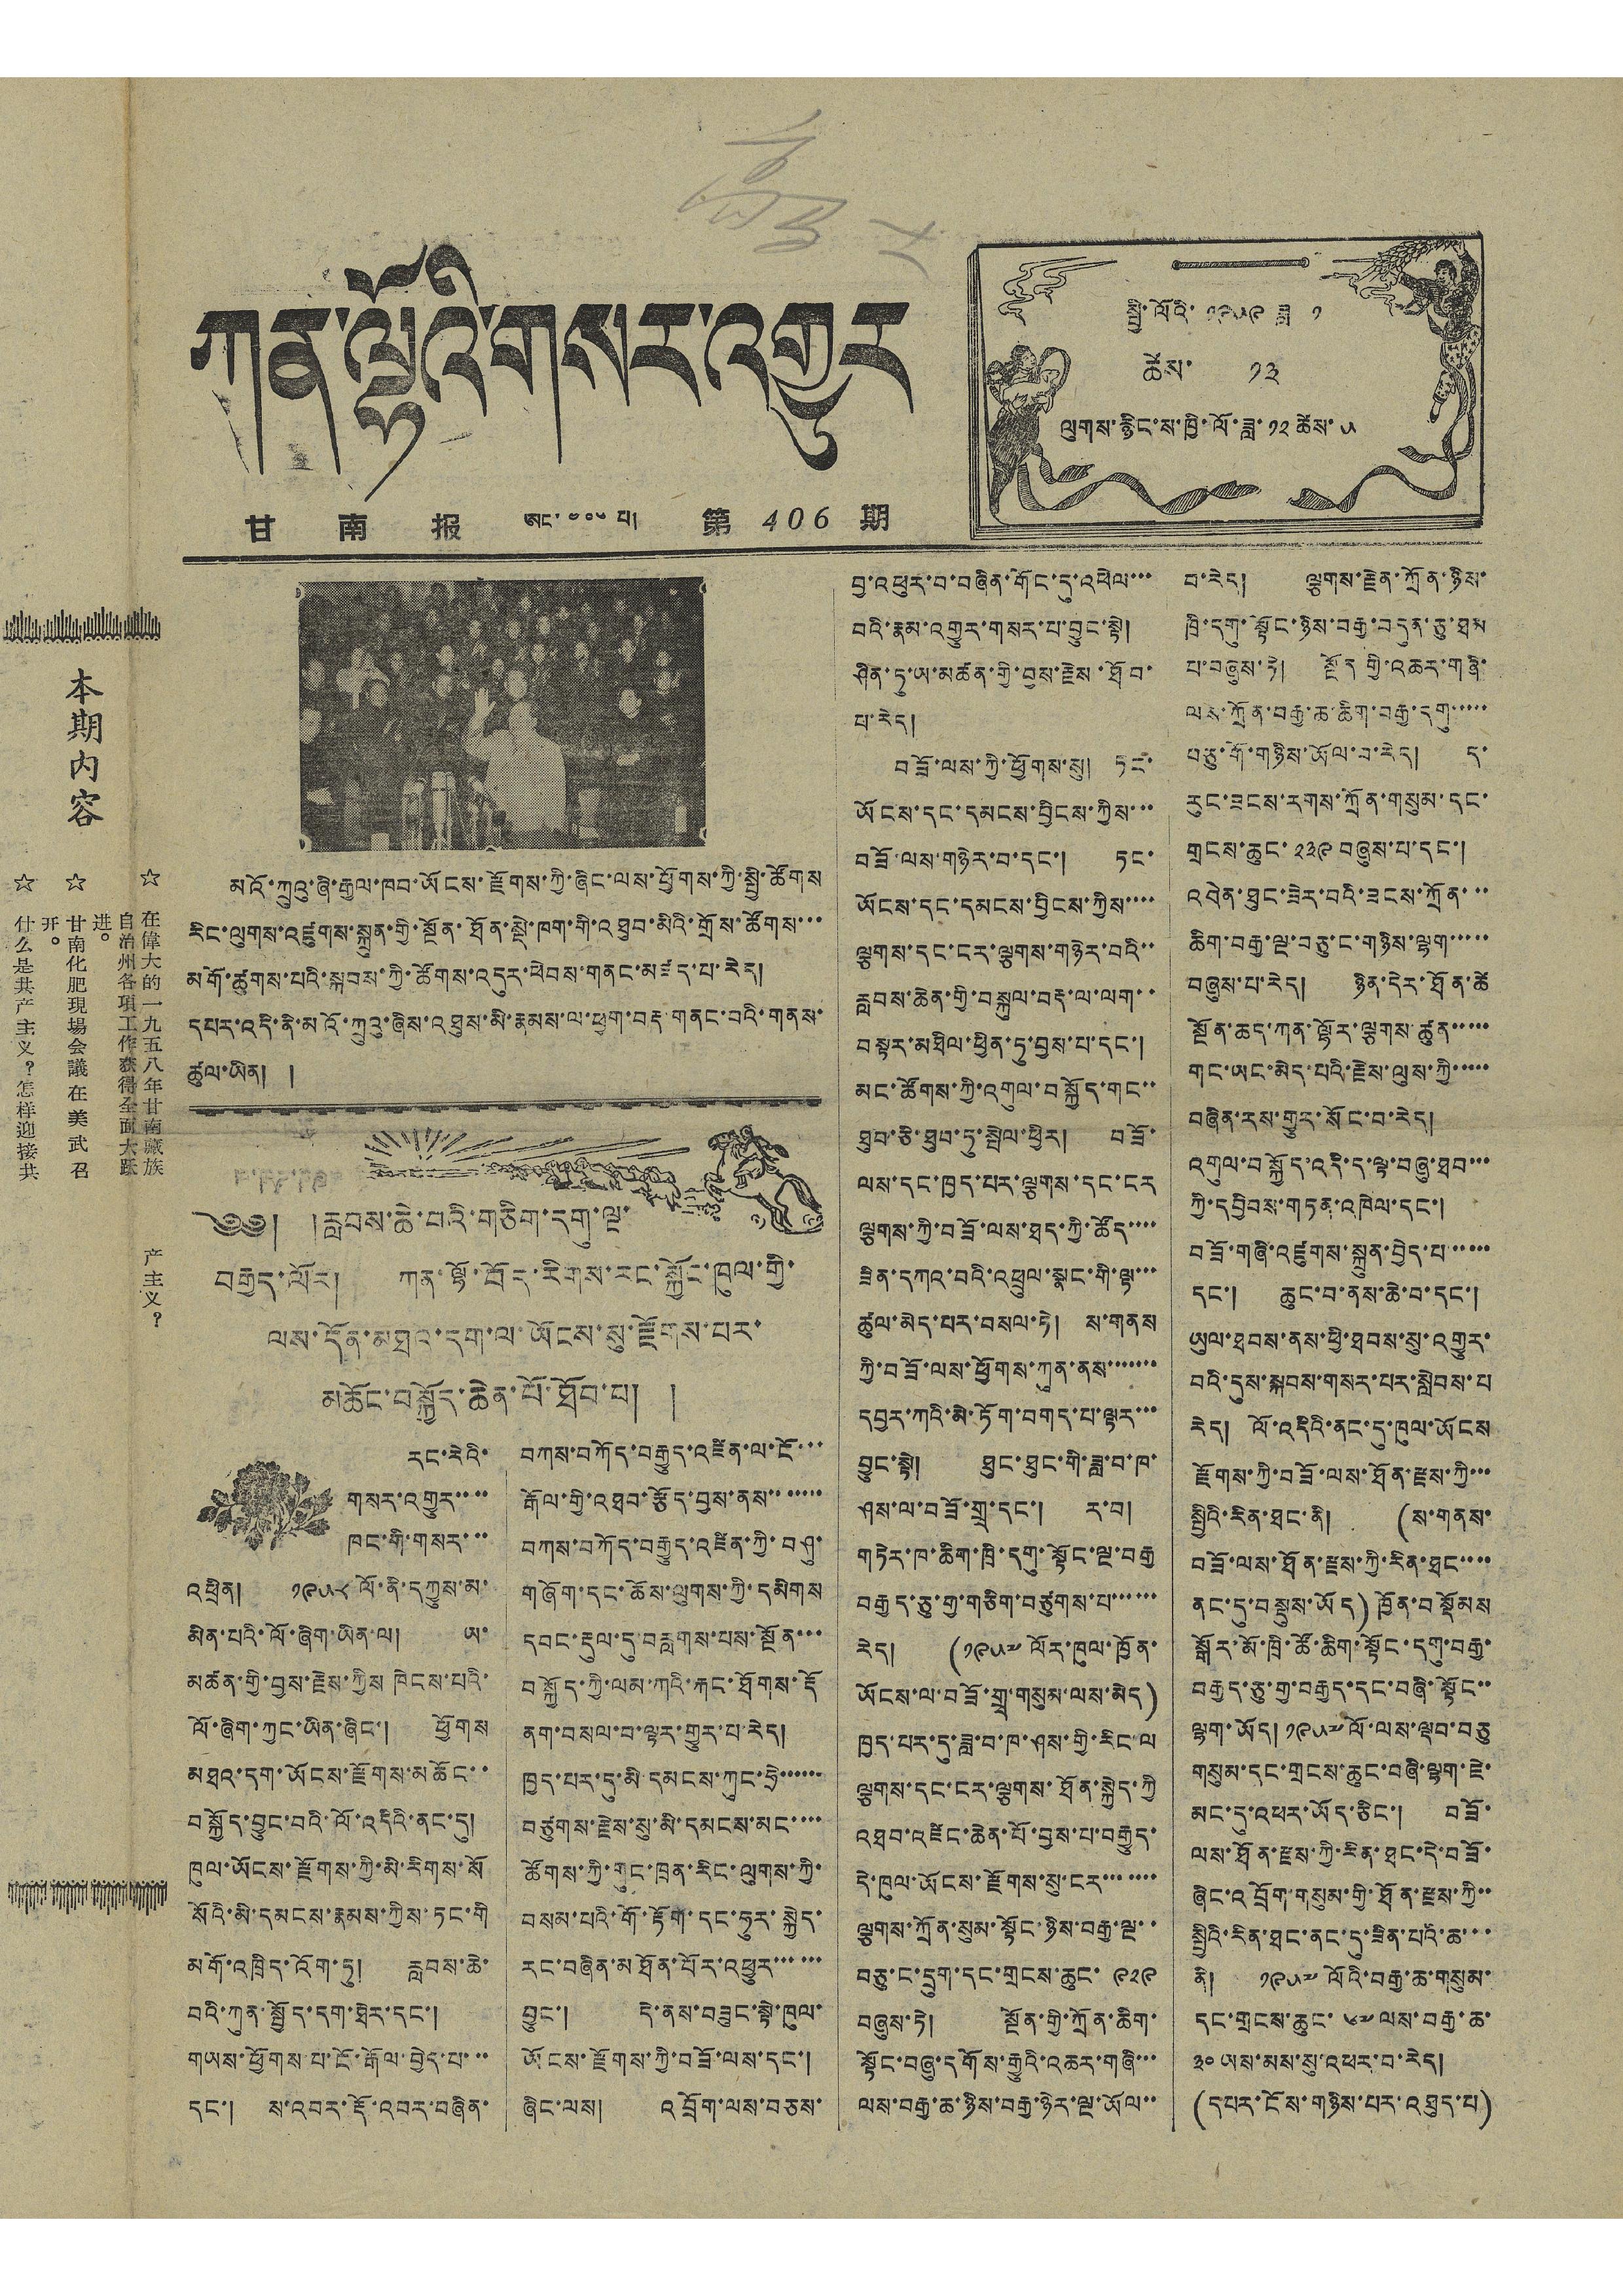ཀན་ལྷོའི་གསར་འགྱུར
甘 南 报 ཨང་ ༤༠༦ པ། 第 406 期
སྤྱི་ལོའི་ ༡༩༥༩ ཟླ་ ༡
ཚེས་ ༡༣
ལུགས་རྙིང་ས་ཁྱི་ལོ་ཟླ་ ༡༢ ཚེས་ ༥
本期內容
☆ 在偉大的一九五八年甘南藏族
自治州各項工作获得全面大跃
进。
☆ 甘南化肥現場会議在美 武 召
开。
☆ 什么是共产主义？怎样迎接共
产主义？
མའི་ཀྲུའུ་ཞི་རྒྱལ་ཁབ་ཡོངས་རྫོགས་ཀྱི་ཞིང་ལས་ཕྱོགས་ཀྱི་སྤྱི་ཚོགས
རིང་ལུགས་འཛུགས་སྐྲུན་གྱི་སྔོན་ཐོན་སྡེ་ཁག་གི་འཐུབ་མིའི་གྲོས་ཚོགས་་་
མགོ་ཚུགས་པའི་སྐབས་ཀྱི་ཚོགས་འདུར་ཕེབས་གནང་མཛད་པ་རེད།
དཔར་འདི་ནི་མའོ་ཀྲུའུ་ཞིས་འཐུས་མི་རྣམས་ལ་ཕྱག་བརྡ་གནང་བའི་གནས་
ཚུལ་ཡིན། །
༄༅། །རླབས་ཆེ་བའི་གཅིག་དགུ་ལྔ་
བརྒྱད་ལོར། ཀན་ལྷོ་བོད་རིགས་རང་སྐྱོང་ཁུལ་གྱི་
ལས་དོན་མཐའ་དག་ལ་ཡོངས་སུ་རྫོགས་པར་
མཆོང་བསྐྱོད་ཆེན་པོ་ཐོབ་པ། །
རང་རེའི་
གསར་འགྱུར་་་་
ཁང་གི་གསར་་་
འཕྲིན། ༡༩༥༨ ལོ་ནི་དཀྱུས་མ་
མིན་པའི་ལོ་ཞིག་ཡིན་ལ། ཡ་
མཚན་གྱི་བྱས་རྗེས་ཀྱིས ཁེངས་པའི་
ལོ་ཞིག་ཀྱང་ཡིན་ཞིང་། ཕྱོགས
མཐའ་དག་ཡོངས་རྫོགས་མཆོང་་
བསྐྱོད་བྱུང་བའི་ལོ་འདིའི་ནང་དུ།
ཁུལ་ཡོངས་རྫོགས་ཀྱི་མི་རིགས་སོ
སོའི་མི་དམངས་རྣམས་ཀྱིས་ཏང་གི
མགོ་འཁྲིད་འོག་ཏུ། རླབས་ཆེ་
བའི་ཀུན་སྦྱོད་དག་ཐེར་དང་།
གཡས་ཕྱོགས་པ་ངོ་རྒོལ་བྱེད་པ་་་
དང་། ས་འབར་རྡོ་འབར་བཞིན་
བཀས་བཀོད་བརྒྱུད་འཛིན་ལ་ངོ་་་
རྒོལ་གྱི་འཐབ་རྩོད་བྱས་ནས་་་་་་་
བཀས་བཀོད་བརྒྱུད་འཛིན་ཀྱི་བཤུ་
གཞོག་དང་ཆོས་ལུགས་ཀྱི་དམིགས
དབང་རྡུལ་དུ་བརླགས་པས་སྔོན་་་
བསྐྱོད་ཀྱི་ལམ་ཀའི་རྐང་ཐོགས་རྡོ
ནག་བསལ་བ་ལྟར་གྱུར་པ་རེད།
ཁྱད་པར་དུ་མི དམངས་ཀུང་ཧྲེ་་་་་་
བཙུགས་རྗེས་སུ་མི་དམངས་མང་་་་
ཚོགས་ཀྱི་གུང་ཁྲན་རིང་ལུགས་ཀྱི་
བསམ་པའི་གོ་རྟོག་དང་ཧུར་སྐྱེད་
རང་བཞིན་མཐོན་པོར་འཕྱུར་་་་་་
བྱུང་། དེ་ནས་བཟུང་སྟེ་ཁུལ་
ཡོངས་རྫོགས་ཀྱི་བཟོ་ལས་དང་།
ཞིང་ལས། འབྲོག་ལས་བཅས་
བྱ་འཕུར་བ་བཞིན་གོང་དུ་འཕེལ་་་
བའི་རྣམ་འགྱུར་གསར་པ་བྱུང་སྟེ།
ཤིན་ཏུ་ཡ་མཚན་གྱི་བྱས་རྗེས་ཐོབ་
པ་རེད།
བཟོ་ལས་ཀྱི་ཕྱོགས་སུ། ཏང་
ཡོངས་དང་དམངས་བྱིངས་ཀྱིས་་་
བཟོ་ལས་གཉེར་བ་དང་། ཏང་
ཡོངས་དང་དམངས་བྱིངས་ཀྱིས་་་་
ལྕགས་དང་ངར་ལྕགས་གཉེར་བའི་་
རླབས་ཆེན་གྱི་བསྐུལ་བརྡ་ལ་ལག་་
བསྟར་མཐིལ་ཕྱིན་ཏུ་བྱས་པ་དང་།
མང་ཐོགས་ཀྱི་འགུལ་བསྐྱོད་གང་་
ཐུབ་ཅི་ཐུབ་ཏུ་སྤེལ་ཕྱིར། བཟོ་
ལས་དང་ཁྱད་པར་ལྕགས་དང་ངར
ལྕགས་ཀྱི་བཟོ་ལས་ཐད་ཀྱི་ཚོད་་་་
ཟིན་དཀའ་བའི་འཕྲུལ་སྣང་གི་ལྟ་་་
ཚུལ་མེད་པར་བསལ་ཏེ། ས་གནས
ཀྱི་བཟོ་ལས་ཕྱོགས་ཀུན་ནས་་་་་་་
དབྱར་ཀའི་མེ་ཏོག་བགད་པ་ལྟར་་་
བྱུང་སྟེ། ཐུང་ཐུང་གི་ཟླ་བ་ཁ་
ཤས་ལ་བཟོ་གྲྭ་དང་། ར་བ།
གཏེར་ཁ་ཆིག་ཁྲི་དགུ་སྟོང་ལྔ་བརྒྱ
བརྒྱད་ཅུ་གྱ་གཅིག་བཙུགས་པ་་་་་་
རེ། (༡༩༥༧ ལོར་ཁུལ་ཁྱོན་
ཡོངས་ལ་བཟོ་གྲྭ་གསུམ་ལས་མེད)
ཁྱད་པར་དུ་ཟླ་བ་ཁ་ཤས་གྱི་རིང་ལ
ལྕགས་དང་ངར་ལྕགས་ཐོན་སྐྱེད་ཀྱི
འཐབ་འཛིང་ཆེན་པོ་བྱས་པ་བརྒྱུད་
དེ་ཁུལ་ཡོངས་རྫོགས་སུ་ངར་་་་་་་
ལྕགས་ཀྲོན་སུམ་སྟོང་ཉིས་བརྒྱ་ལྔ་་
བཅུ་ང་དྲུག་དང་གྲངས་ཆུང་ ༩༢༩
བཞུས་ཏེ། སྔོན་གྱི་ཀྲོན་ཆིག་
སྟོང་བཞུ་དགོས་རྒྱུའི་འཆར་གཞི་་་
ལས་བརྒྱ་ཆ་ཉིས་བརྒྱ་ཉེར་ལྔ་ཡོལ་་
བ་རེད། ལྕགས་རྗེན་ཀྲོན་ཉིས་
ཁྲི་དགུ་སྟོང་ཉིས་བརྒྱ་བདུན་ཅུ་ཐམ
པ་བཞུས་ཏེ། སྔོན གྱི་འཆར་གཞི་
ལས་ཀྲོན་བརྒྱ་ཆ་ཆིག་བརྒྱ་དགུ་་་་་
བཅུ་གོ་གཉིས་ཡོལ་བ་རེད། ད་
རུང་ཟངས་རགས་ཀྲོན་གསུམ་དང་
གྲངས་ཆུང་ ༢༣༩ བཞུས་པ་དང་།
འབེན་ཐུང་ཟེར་བའི་ཟངས་ཀྲོན་་་
ཆིག་བརྒྱ་ལྔ་བཅུ་ང་གཉིས་ལྷག་་་་་
བཞུས་པ་རེད། ཉིན་དེར་ཐོན་ཚེ
སྔོན་ཆད་ཀན་ལྷོར་ལྕགས་ཚུན་་་་་
གང་ཡང་མེད་པའི་རྗེས་ལུས་ཀྱི་་་་་
བཞིན་རས་གྱུར་སོང་བ་རེད།
འགུལ་བསྐྱོད་འདི་ད་ལྟ་བཞུ་ཐབ་་་
ཀྱི་དབྱིབས་གཏན་འཁེལ་དང་།
བཟོ་གཞི་འཛུགས་སྐྲུན་བྱེད་པ་་་་་
དང་། ཆུང་བ་ནས་ཆེ་བ་དང་།
ཡུལ་ཐབས་ནས་ཕྱི་ཐབས་སུ་འགྱུར་
བའི་དུས་སྐབས་གསར་པར་སླེབས་པ
རེད། ལོ་འདིའི་ནང་དུ་ཁུལ་ཡོངས
རྫོགས་ཀྱི་བཟོ་ལས་ཐོན་རྫས་ཀྱི་་་
སྤྱི་རིན་ཐང་ནི། (ས་གནས་
བཟོ་ལས་ཐོན་རྫས་ཀྱི་རིན་ཐང་་་་
ནང་དུ་བསྡུས་ཡོད) ཁྱོན་བསྡོམས
སྒོར་མོ་ཁྲི་ཚོ་ཆིག་སྟོང་དགུ་བརྒྱ་
བརྒྱད་ཅུ་གྱ་བརྒྱད་དང་བཞི་སྟོང་་
ལྷག་ཡོད། ༡༩༥༧ ལོ་ལས་ལྡབ་བཅུ
གསུམ་དང་གྲངས་ཆུང་བཞི་ལྷག་ཇེ་
མང་དུ་འཕར་ཡོད་ཅིང་། བཟོ་
ལས་ཐོན་རྫས་ཀྱི་རིན་ཐང་དེ་བཟོ་
ཞིང་འབྲོག་གསུམ་གྱི་ཐོན་རྫས་ཀྱི་་
སྤྱིའི་རིན་ཐང་ནང་དུ་ཟིན་པའི་ཆ་་་
ནི། ༡༩༥༧ ལོའི་བརྒྱ་ཆ་གསུམ་
དང་གྲངས་ཆུང་ ༦༧ ལས་བརྒྱ་ཆ་
༣༠ ཡས་མས་སུ་འཕར་བ་རེད།
(དཔར་ངོས་གཉིས་པར་འཐུད་པ)
